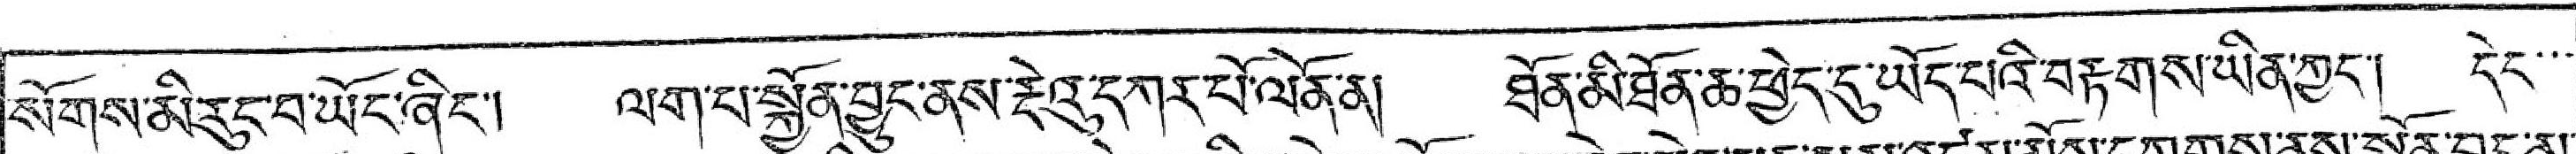སོགས་མི་རུང་བ་ཡོང་ཞིང་། ལག་པ་སྐྱོན་བྱུང་ནས་རྡེའུ་དཀར་པོ་ལོན་ན། ཐོན་མི་ཐོན་ཆ་ཕྱེད་དུ་ཡོད་པའི་བརྟགས་ཡིན་ཀྱང་། དེང་་་
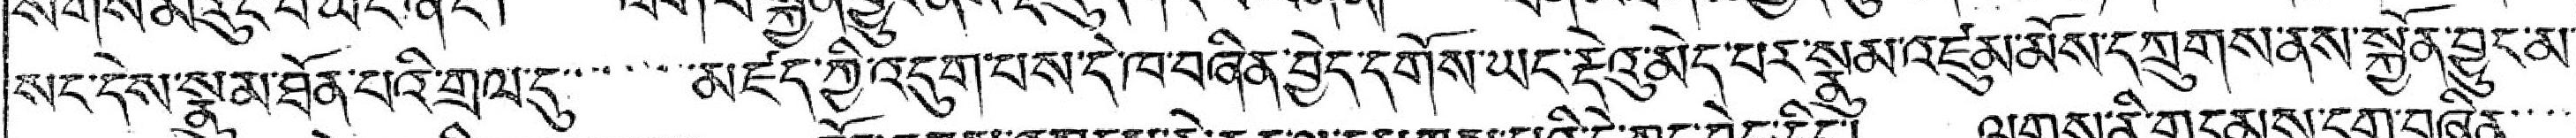སང་དེས་སྣུམ་ཐོན་པའི་གྲལ་དུ་་་་་་་མཛད་ཀྱི་འདུག་པས་དེ་ཁ་བཞིན་བྱེད་དགོས་ཡང་རྡེའུ་མེད་པར་སྣུམ་འཛུམ་མོས་དཀྲུགས་ནས་སྐྱོན་བྱུང་མ་
